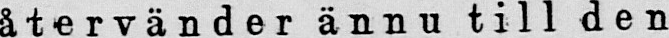återvänder ännu till den
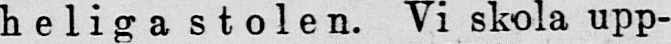heligastolen. Vi skola upp-
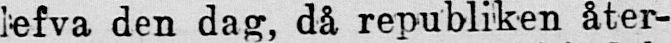lefva den dag, då republiken åter-
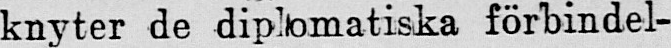knyter de diplomatiska förbindel-
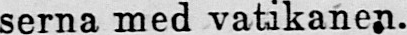serna med vatikanen
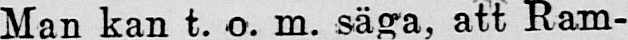Man kan t. o. m. säga, att Ram-
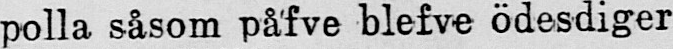polla såsom påfve blefve ödesdiger
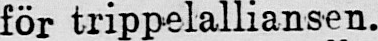för trippelalliansen.
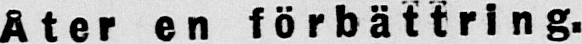Åter en förbättring.
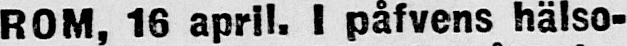ROM, 16 april. I påfvens hälso-
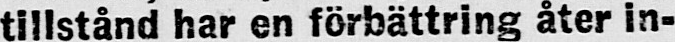tillstånd har en förbättring åter in-
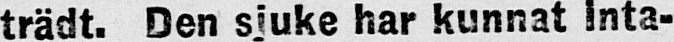trädt. Den sjuke har kunnat inta-
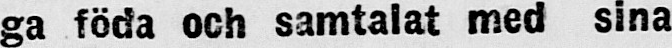ga föda och samtalat med sina
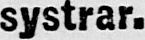systrar.
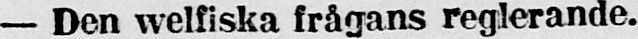— Den welfiska frågans reglerande.
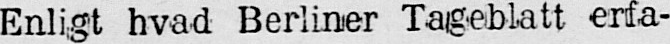Enligt hvad Berliner Tageblatt erfa-
